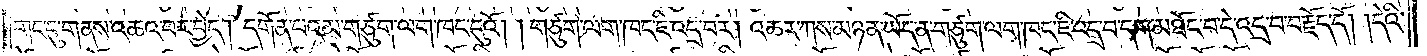གང་དུ་གནས་འཆའ་བར་བྱེད། དགོན་པའམ་གཙུག་ལག་ཁང་དུའོ། །གཙུག་ལག་ཁང་ཇི་འདྲ་བར། འཆར་ཀས་མཉན་ཡོད་ན་གཙུག་ལག་ཁང་ཇི་འདྲ་བ་དག་མཐོང་བ་དེ་འདྲ་བ་བརྗོད་དོ། །དེའི་
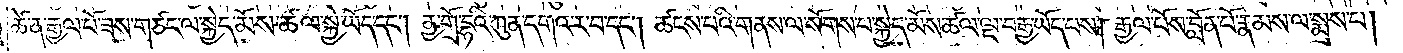ཚེ་ན་རྒྱལ་པོ་ཟས་གཙང་ལ་སྐྱེད་མོས་ཚལ་སྐྱེ་ཡོད་དང༌། ནྱ་གྲོ་དྷའི་ཀུན་དགའ་ར་བ་དང༌། ཚངས་པའི་གནས་ལ་སོགས་པ་སྐྱེད་མོས་ཚལ་ལྔ་བརྒྱ་ཡོད་པས། རྒྱལ་པོས་བློན་པོ་རྣམས་ལ་སྨྲས་པ།
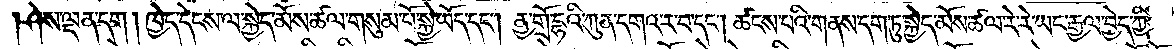ཤེས་ལྡན་དག། ཁྱེད་དེངས་ལ་སྐྱེད་མོས་ཚལ་གསུམ་པོ་སྐྱེ་ཡོད་དང༌། ནྱ་གྲོ་དྷའི་ཀུན་དགའ་ར་བ་དང༌། ཚངས་པའི་གནས་དག་ཏུ་སྐྱེད་མོས་ཚལ་རེ་རེ་ཡང་རྒྱལ་བྱེད་ཀྱི་
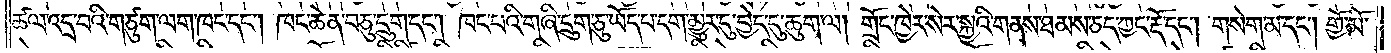ཚལ་འདྲ་བའི་གཙུག་ལག་ཁང་དང༌། ཁང་ཆེན་བཅུ་དྲུག་དང༌། ཁང་པའི་གཞི་དྲུག་ཅུ་ཡོད་པ་དག་མྱུར་དུ་བྱེད་དུ་ཆུག་ལ། གྲོང་ཁྱེར་སེར་སྐྱའི་གནས་ཐམས་ཅད་ཀྱང་རྡོ་དང༌། གསེག་མ་དང༌། གྱོ་མོ་
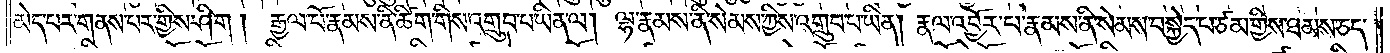མེད་པར་གནས་པར་གྱིས་ཤིག ། རྒྱལ་པོ་རྣམས་ནི་ཚིག་གིས་འགྲུབ་པ་ཡིན་ལ། ལྷ་རྣམས་ནི་སེམས་ཀྱིས་འགྲུབ་པ་ཡིན། རྣལ་འབྱོར་པ་རྣམས་ནི་སེམས་བསྐྱེད་པ་ཙམ་གྱིས་ཐམས་ཅད་
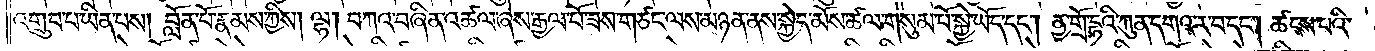འགྲུབ་པ་ཡིན་པས། བློན་པོ་རྣམས་ཀྱིས། ལྷ། བཀའ་བཞིན་འཚལ་ཞེས་རྒྱལ་པོ་ཟས་གཙང་ལས་མཉན་ནས་སྐྱེད་མོས་ཚལ་གསུམ་པོ་སྐྱེ་ཡོད་དང༌། ནྱ་གྲོ་དྷའི་ཀུན་དགའ་ར་བ་དང༌། ཚངས་པའི་
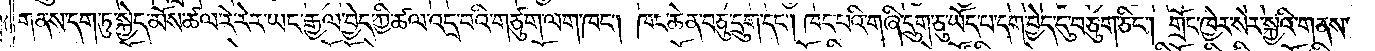གནས་དག་ཏུ་སྐྱེད་མོས་ཚལ་རེ་རེར་ཡང་རྒྱལ་བྱེད་ཀྱི་ཚལ་འདྲ་བའི་གཙུག་ལག་ཁང༌། ཁང་ཆེན་བཅུ་དྲུག་དང༌། ཁང་པའི་གཞི་དྲུག་ཅུ་ཡོད་པ་དག་བྱེད་དུ་བཅུག་ཅིང༌། གྲོང་ཁྱེར་སེར་སྐྱའི་གནས་
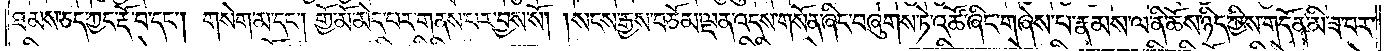ཐམས་ཅད་ཀྱང་རྡོ་བ་དང༌། གསེག་མ་དང༌། གྱོ་མོ་མེད་པར་གནས་པར་བྱས་སོ། །སངས་རྒྱས་བཅོམ་ལྡན་འདས་གསོན་ཞིང་བཞུགས་ཏེ་འཚོ་ཞིང་གཞེས་པ་རྣམས་ལ་ནི་ཆོས་ཉིད་ཀྱིས་གདོན་མི་ཟ་བར་
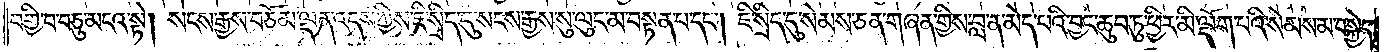བགྱི་བ་བཅུ་མངའ་སྟེ། སངས་རྒྱས་བཅོམ་ལྡན་འདས་ཀྱིས་ཇི་སྲིད་དུ་སངས་རྒྱས་སུ་ལུང་མ་བསྟན་པ་དང༌། ཇི་སྲིད་དུ་སེམས་ཅན་གཞན་གྱིས་བླ་ན་མེད་པའི་བྱང་ཆུབ་ཏུ་ཕྱིར་མི་ལྡོག་པའི་སེམས་མ་བསྐྱེད་
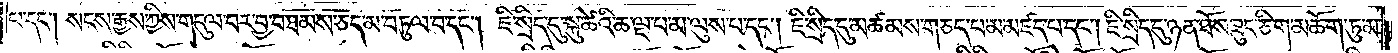པ་དང༌། སངས་རྒྱས་ཀྱིས་གདུལ་བར་བྱ་བ་ཐམས་ཅད་མ་བཏུལ་བ་དང༌། ཇི་སྲིད་དུ་སྐུ་ཚེའི་ཆ་ལྔ་པ་མ་ལུས་པ་དང༌། ཇི་སྲིད་དུ་མཚམས་གཅད་པ་མ་མཛད་པ་དང༌། ཇི་སྲིད་དུ་ཉན་ཐོས་ཟུང་ཅིག་མཆོག་ཏུ་མ་
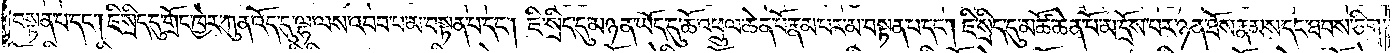བསྟན་པ་དང༌། ཇི་སྲིད་དུ་གྲོང་ཁྱེར་ཀུན་འོད་དུ་ལྷ་ལས་འབབ་པ་མ་བསྟན་པ་དང༌། ཇི་སྲིད་དུ་མཉན་ཡོད་དུ་ཆོ་འཕྲུལ་ཆེན་པོ་རྣམ་པར་མ་བསྟན་པ་དང༌། ཇི་སྲིད་དུ་མཚོ་ཆེན་པོ་མ་དྲོས་པར་ཉན་ཐོས་རྣམས་དང་ཐབས་ཅིག་
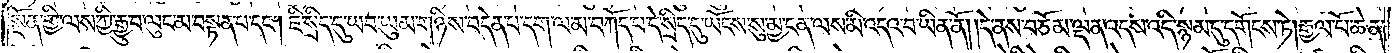སྔོན་གྱི་ལས་ཀྱི་རྒྱུ་བ་ལུང་མ་བསྟན་པ་དང༌། ཇི་སྲིད་དུ་ཡབ་ཡུམ་གཉིས་བདེན་པ་དག་ལ་མ་བཀོད་པ་དེ་སྲིད་དུ་ཡོངས་སུ་མྱ་ངན་ལས་མི་འདའ་བ་ཡིན་ནོ། །དེ་ནས་བཅོམ་ལྡན་འདས་འདི་སྙམ་དུ་དགོངས་ཏེ། རྒྱལ་པོ་ཆེན་
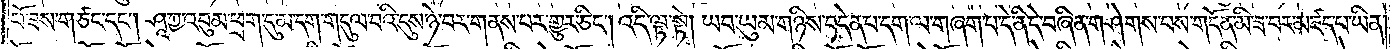པོ་ཟས་གཙང་དང༌། ཤཱཀྱ་འབུམ་ཕྲག་དུ་མ་དག་གདུལ་བའི་དུས་ཉེ་བར་གནས་པར་གྱུར་ཅིང༌། འདི་ལྟ་སྟེ། ཡབ་ཡུམ་གཉིས་བདེན་པ་དག་ལ་གཞག་པ་དེ་ནི་དེ་བཞིན་གཤེགས་པས་གདོན་མི་ཟ་བར་མཛད་པ་ཡིན་
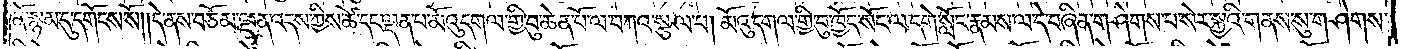ནོ་སྙམ་དུ་དགོངས་སོ། །དེ་ནས་བཅོམ་ལྡན་འདས་ཀྱིས་ཚེ་དང་ལྡན་པ་མོའུ་དགལ་གྱི་བུ་ཆེན་པོ་ལ་བཀའ་སྩལ་པ། མོའུ་དགལ་གྱི་བུ་ཁྱོད་སོང་ལ་དགེ་སློང་རྣམས་ལ་དེ་བཞིན་གཤེགས་པ་སེར་སྐྱའི་གནས་སུ་གཤེགས་
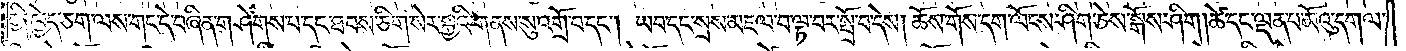ཀྱི། ཁྱེད་ཅག་ལས་གང་དེ་བཞིན་གཤེགས་པ་དང་ཐབས་ཅིག་སེར་སྐྱའི་གནས་སུ་འགྲོ་བ་དང༌། ཡབ་དང་སྲས་མཇལ་བ་ལྟ་བར་སྤྲོ་བ་དེས། ཆོས་གོས་དག་ལོངས་ཤིག་ཅེས་སྒོས་ཤིག། ཚེ་དང་ལྡན་པ་མོའུ་དགལ་
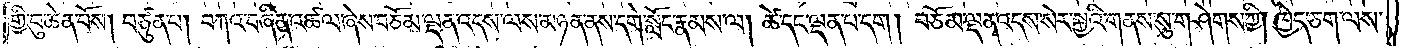གྱི་བུ་ཆེན་པོས། བཙུན་པ། བཀའ་བཞིན་འཚལ་ཞེས་བཅོམ་ལྡན་འདས་ལས་མཉན་ནས་དགེ་སློང་རྣམས་ལ། ཚེ་དང་ལྡན་པ་དག། བཅོམ་ལྡན་འདས་སེར་སྐྱའི་གནས་སུ་གཤེགས་ཀྱི། ཁྱེད་ཅག་ལས་
